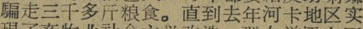騙走三千多斤粮食。直到去年河卡地区实
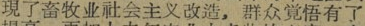現了畜牧业社会主义改造，群众覚悟有了
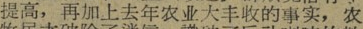提高，再加上去年农业大丰收的事实，农
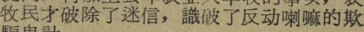牧民才破除了迷信，識破了反动喇嘛的欺
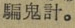騙鬼計。
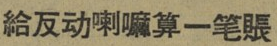給反动喇嘛算一笔賬
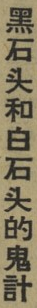黑石头和白石头的鬼計
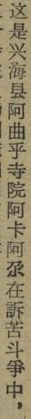这是兴海县阿区乎寺院阿卡阿尕在訴苦斗爭中，
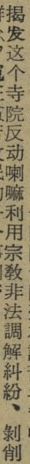揭发这个寺院反动喇嘛利用宗敎非法調解糾紛、剝削
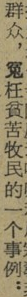群众，冤枉貧苦牧民的一个事例：
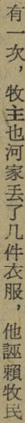有一次，牧主也河家丢了几件衣服，他誣賴牧民
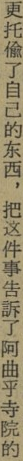更托偷了自己的东西，把这件事告訴了阿曲呼寺院的
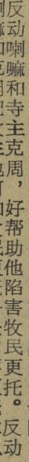反动喇嘛和寺主克周，好帮助他陷害牧民更托。反动
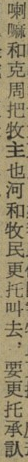喇嘛和克周把牧主也河和牧民更托叫去，要更托承认
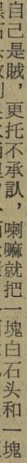自己是賊，更托不承认，喇嘛就把一塊白石头和一塊
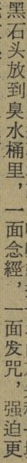黑石头放到臭水桶里，一面念經，一面发咒，强迫更
